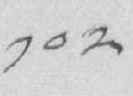༡༠༢
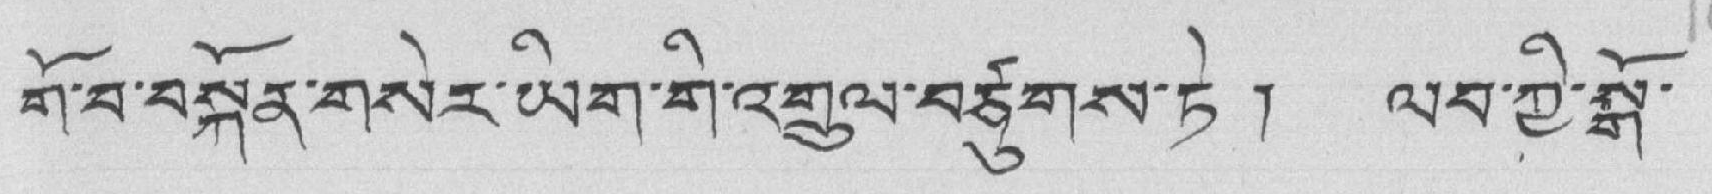གོ་བ་བསྐོན་གསེར་ཡིག་གི་འགྲུལ་བཙུགས་ཏེ ། ལབ་ཀྱི་སྒོ་
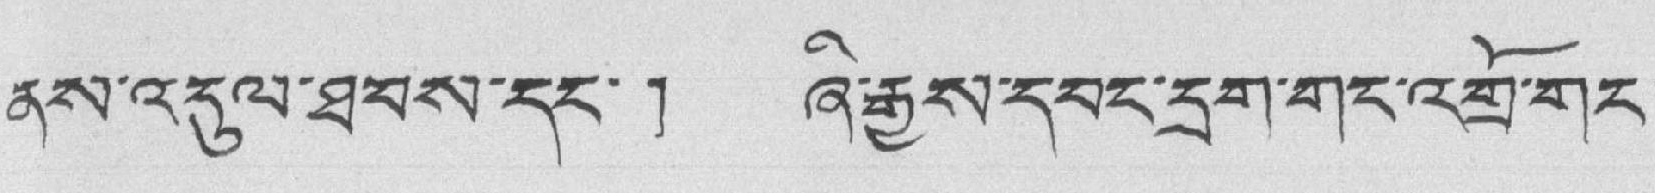ནས་འདུལ་ཐབས་དང་། ཞི་རྒྱས་དབང་དྲག་གང་འགྲོ་གང་
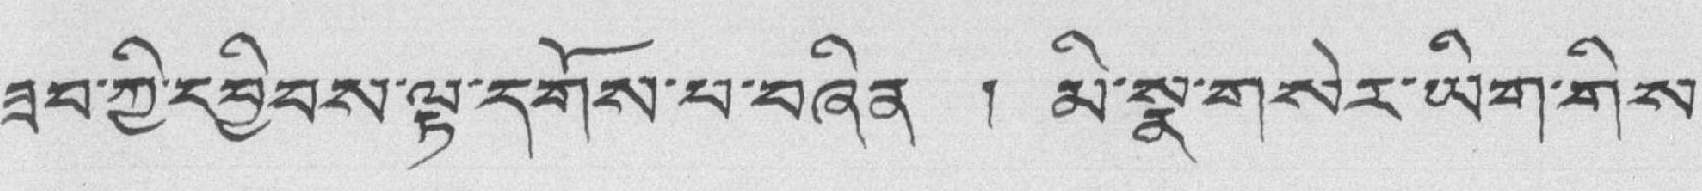ཟབ་ཀྱི་དབྱིབས་ལྟ་དགོས་པ་བཞིན ། མི་སྣ་གསེར་ཡིག་གིས་
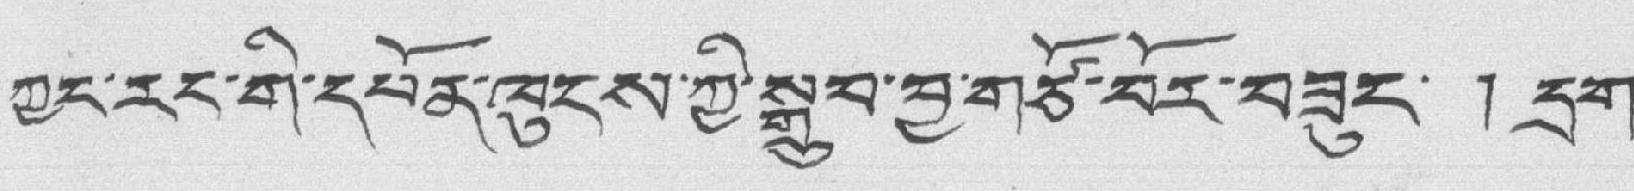ཀྱང་རང་གི་དཔོན་ཁུངས་ཀྱི་སྒྲུབ་བྱ་གཙོ་བོར་བཟུང་ ། དྲུག་
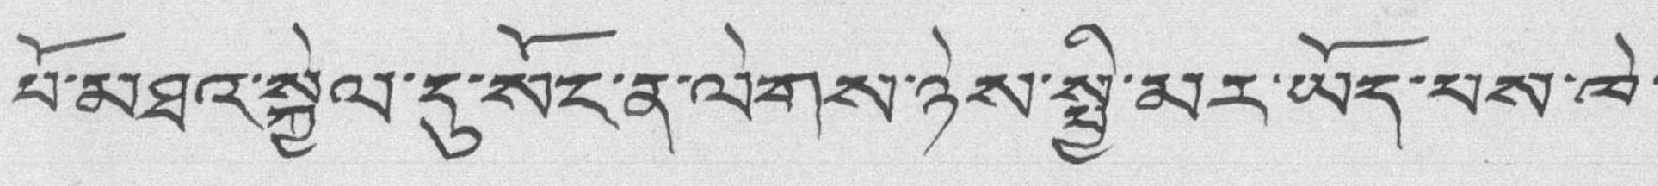པོ་མཐའ་སྐྱེལ་དུ་སང་ན་ལེགས་ཉེས་སྤྱི་མར་ཡོད་པས་ཁེ་
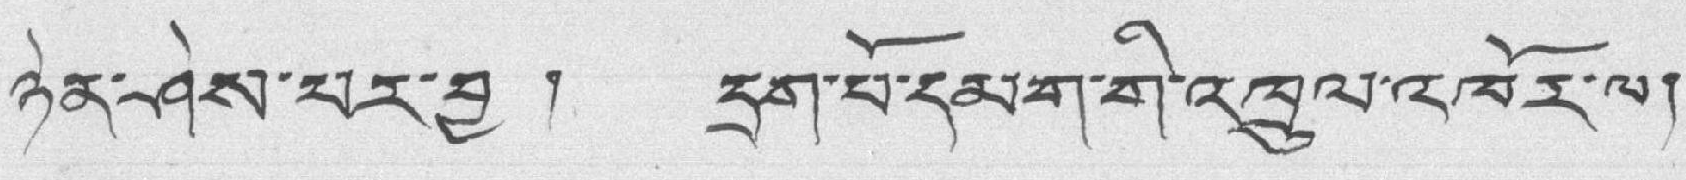ཉེན་ཤེས་པར་བྱ ། དྲག་པོ་དམག་གི་འཁྲུལ་འཁོར་ལ།
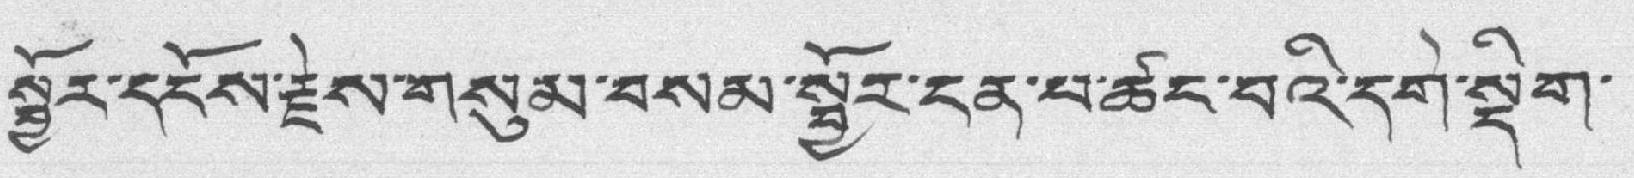སྦྱོར་དངོས་རྗེས་གསུམ་བསམ་སྦྱོར་ངན་པ་ཚང་བའི་དགེ་སྡིག་
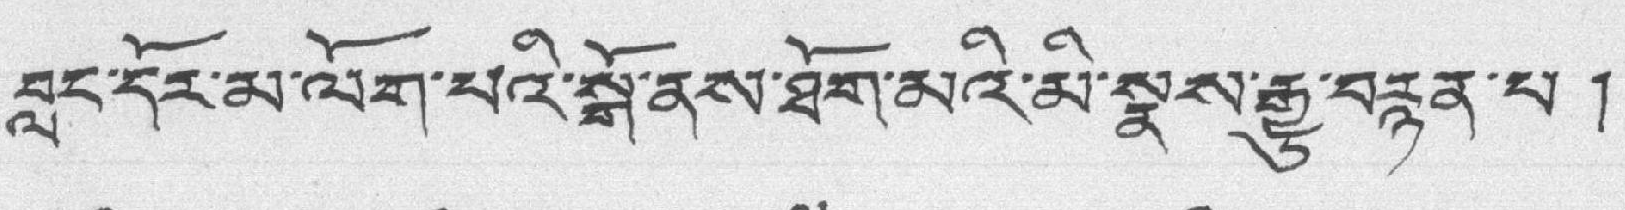བླང་དོར་མ་ལོག་པའི་སྒོ་ནས་ཐོག་མའི་མི་སྣས་རྒྱུ་བརྙན་པ །
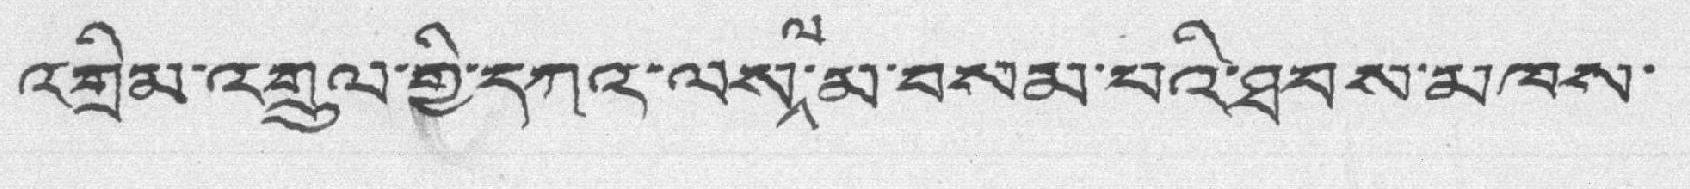འགྲིམ་འགྲུལ་གྱི་དཀའ་ལས་ལ་མ་བསམ་པའི་ཐབས་མཁས་
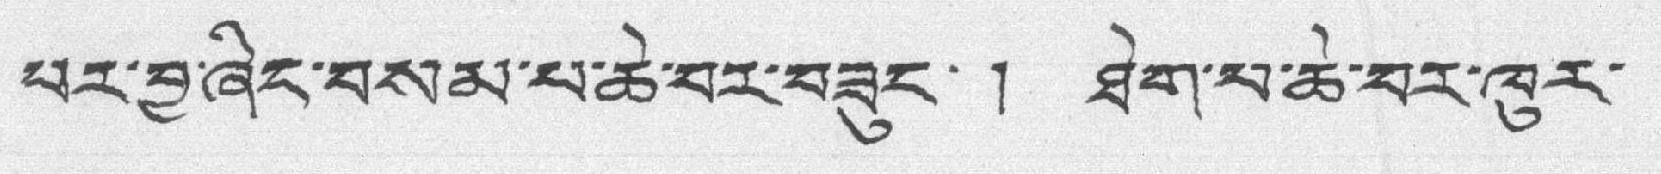པར་བྱ་ཞིང་བསམ་པ་ཆེ་བར་བཟུང་ ། ཐེག་པ་ཆེ་བར་ཁུར་
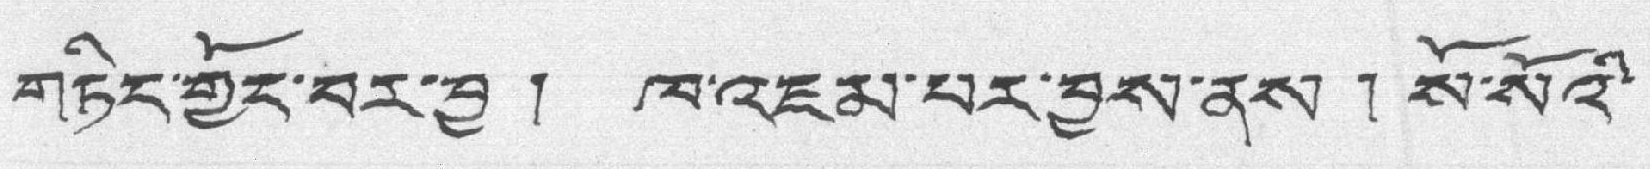གཏིང་གྱོང་བར་བྱ ། ཁ་འཇམ་བར་བྱས་ནས །སོ་སོའི་
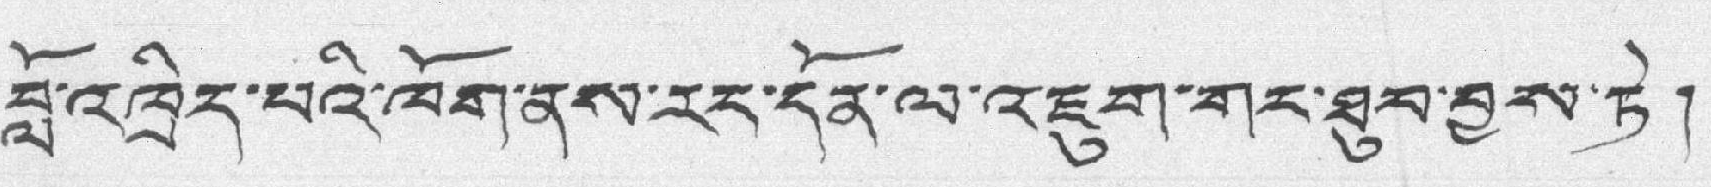བློ་འཁྲིད་པའི་ཁོག་ནས་རང་དོན་ལ་འཇུག་གང་ཐུབ་བྱས་ཏེ །
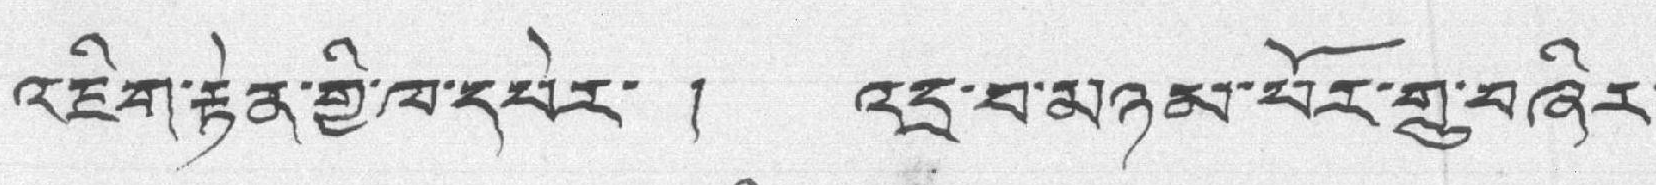འཇིག་རྟེན་གྱི་ཁ་དཔེར་ ། འདྲ་བ་མཉམ་པོར་གྲུ་བཞིར་
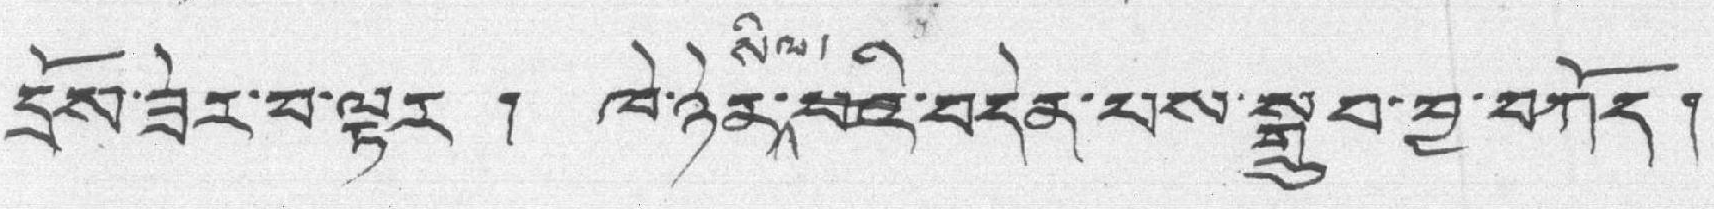དྲོས་ཟེར་བ་ལྟར ། ཁེ་ཉེན་སིལ་པའི་བདེན་པས་སྒྲུབ་བྱ་བཀོད།
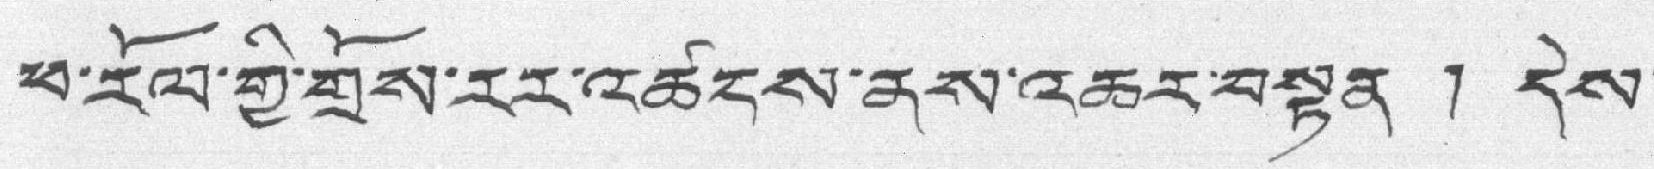ཕ་རོལ་གྱི་གྲོས་རར་འཚངས་ནས་འཆར་བསྟན ། དེས་
